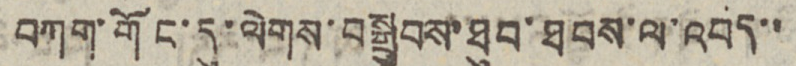བཀག་གོང་དུ་ལེགས་བསྒྲུབས་ཐུབ་ཐབས་ལ་འབད་་
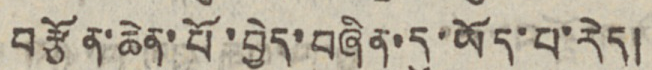བརྩོན་ཆེན་པོ་བྱེད་བཞིན་དུ་ཡོད་པ་རེད།
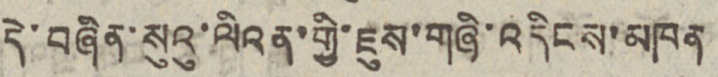དེ་བཞིན་སུའུ་ལིའན་གྱི་ཇུས་གཞི་འདིངས་མཁན
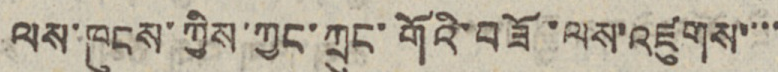ལས་ཁུངས་ཀྱིས་ཀྱང་ཀྲུང་གོའི་བཟོ་ལས་འཛུགས་་་་
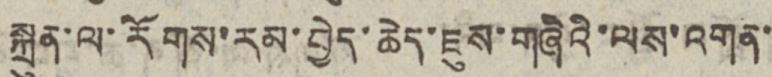སྐྲུན་ལ་རོགས་རམ་བྱེད་ཆེད་ཇུས་གཞིའི་ལས་འགན་
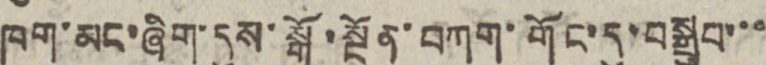ཁག་མང་ཞིག་དུས་སྒོ་སྔོན་བཀག་གོང་དུ་བསྒྲུབ་་་
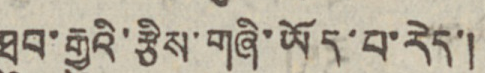ཐུབ་རྒྱུའི་རྩིས་གཞི་ཡོད་པ་རེད་།
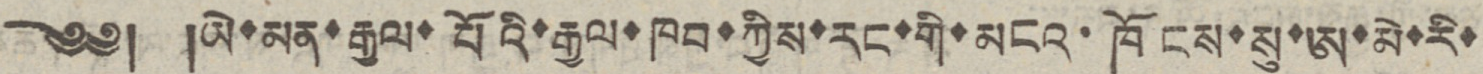༄༅། །ཡེ་མན་རྒྱལ་པོའི་རྒྱལ་ཁབ་ཀྱིས་རང་གི་མངའ་ཁོངས་སུ་ཨ་མེ་རི་
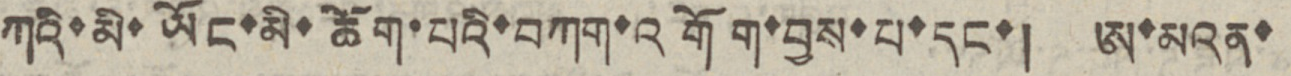ཀའི་མི་ཡོང་མི་ཆོག་པའི་བཀག་འགོག་བྱས་པ་དང་། ཨ་མའན་
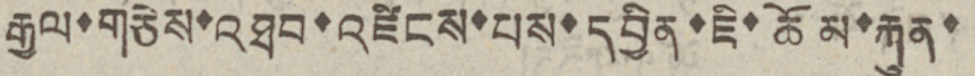རྒྱལ་གཅེས་འཐབ་འཛིངས་པས་དབྱིན་ཇི་ཆོམ་རྐུན་
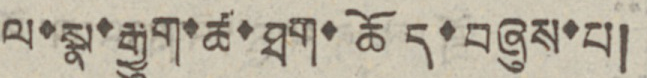ལ་སྣ་རྒྱུག་ཚ་ཐག་ཆོད་བཞུས་པ།
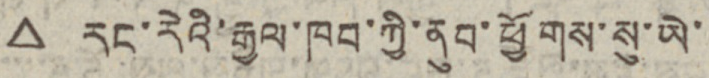△ རང་རེའི་རྒྱལ་ཁབ་ཀྱི་ནུབ་ཕྱོགས་སུ་ཡེ་
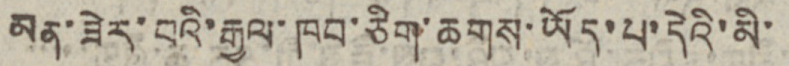མན་ཟེར་བའི་རྒྱལ་ཁབ་ཅིག་ཆགས་ཡོད་པ་དེའི་མི་
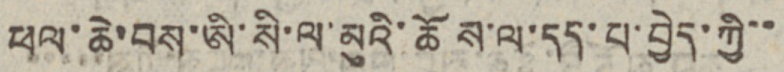ཕལ་ཆེ་བས་ཨི་སི་ལ་མུའི་ཆོས་ལ་དད་པ་བྱེད་ཀྱི་་
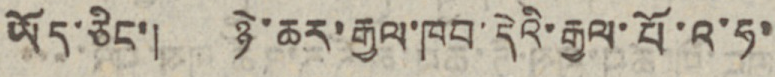ཡོད་ཅིང་། ཉེ་ཆར་རྒྱལ་ཁབ་དེའི་རྒྱལ་པོ་འ་ཧ་
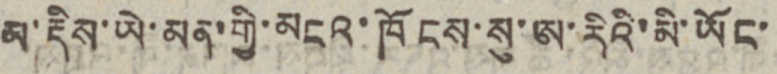མ་རྡིས་ཡེ་མན་གྱི་མངའ་ཁོངས་སུ་ཨ་རིའི་མི་ཡོང་
